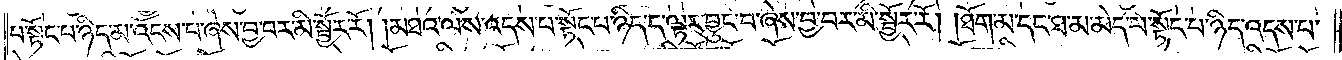པ་སྟོང་པ་ཉིད་མ་འོངས་པ་ཞེས་བྱ་བར་མི་སྦྱོར་རོ། །མཐའ་ལས་འདས་པ་སྟོང་པ་ཉིད་ད་ལྟར་བྱུང་བ་ཞེས་བྱ་བར་མི་སྦྱོར་རོ། །ཐོག་མ་དང་ཐ་མ་མེད་པ་སྟོང་པ་ཉིད་འདས་པ་
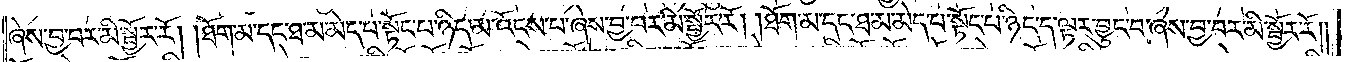ཞེས་བྱ་བར་མི་སྦྱོར་རོ། །ཐོག་མ་དང་ཐ་མ་མེད་པ་སྟོང་པ་ཉིད་མ་འོངས་པ་ཞེས་བྱ་བར་མི་སྦྱོར་རོ། །ཐོག་མ་དང་ཐ་མ་མེད་པ་སྟོང་པ་ཉིད་ད་ལྟར་བྱུང་བ་ཞེས་བྱ་བར་མི་སྦྱོར་རོ༎
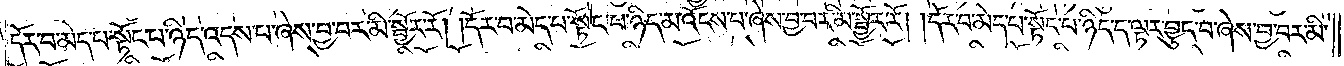དོར་བ་མེད་པ་སྟོང་པ་ཉིད་འདས་པ་ཞེས་བྱ་བར་མི་སྦྱོར་རོ། །དོར་བ་མེད་པ་སྟོང་པ་ཉིད་མ་འོངས་པ་ཞེས་བྱ་བར་མི་སྦྱོར་རོ། །དོར་བ་མེད་པ་སྟོང་པ་ཉིད་ད་ལྟར་བྱུང་བ་ཞེས་བྱ་བར་མི་
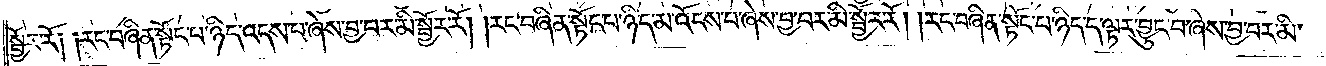སྦྱོར་རོ༑ ༑རང་བཞིན་སྟོང་པ་ཉིད་འདས་པ་ཞེས་བྱ་བར་མི་སྦྱོར་རོ། །རང་བཞིན་སྟོང་པ་ཉིད་མ་འོངས་པ་ཞེས་བྱ་བར་མི་སྦྱོར་རོ། །རང་བཞིན་སྟོང་པ་ཉིད་ད་ལྟར་བྱུང་བ་ཞེས་བྱ་བར་མི་
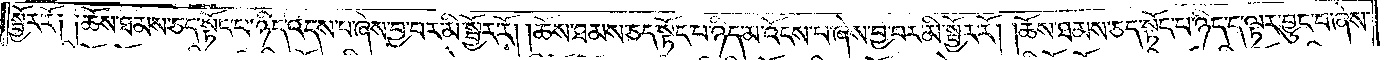སྦྱོར་རོ༑ ༑ཆོས་ཐམས་ཅད་སྟོང་པ་ཉིད་འདས་པ་ཞེས་བྱ་བར་མི་སྦྱོར་རོ། །ཆོས་ཐམས་ཅད་སྟོང་པ་ཉིད་མ་འོངས་པ་ཞེས་བྱ་བར་མི་སྦྱོར་རོ། །ཆོས་ཐམས་ཅད་སྟོང་པ་ཉིད་ད་ལྟར་བྱུང་བ་ཞེས་
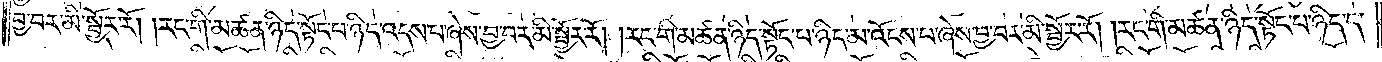བྱ་བར་མི་སྦྱོར་རོ། །རང་གི་མཚན་ཉིད་སྟོང་པ་ཉིད་འདས་པ་ཞེས་བྱ་བར་མི་སྦྱོར་རོ། །རང་གི་མཚན་ཉིད་སྟོང་པ་ཉིད་མ་འོངས་པ་ཞེས་བྱ་བར་མི་སྦྱོར་རོ། །རང་གི་མཚན་ཉིད་སྟོང་པ་ཉིད་ད་
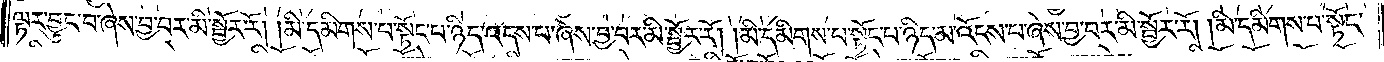ལྟར་བྱུང་བ་ཞེས་བྱ་བར་མི་སྦྱོར་རོ། །མི་དམིགས་པ་སྟོང་པ་ཉིད་འདས་པ་ཞེས་བྱ་བར་མི་སྦྱོར་རོ། །མི་དམིགས་པ་སྟོང་པ་ཉིད་མ་འོངས་པ་ཞེས་བྱ་བར་མི་སྦྱོར་རོ། །མི་དམིགས་པ་སྟོང་
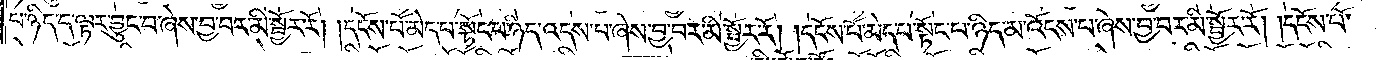པ་ཉིད་ད་ལྟར་བྱུང་བ་ཞེས་བྱ་བར་མི་སྦྱོར་རོ། །དངོས་པོ་མེད་པ་སྟོང་པ་ཉིད་འདས་པ་ཞེས་བྱ་བར་མི་སྦྱོར་རོ། །དངོས་པོ་མེད་པ་སྟོང་པ་ཉིད་མ་འོངས་པ་ཞེས་བྱ་བར་མི་སྦྱོར་རོ། །དངོས་པོ་
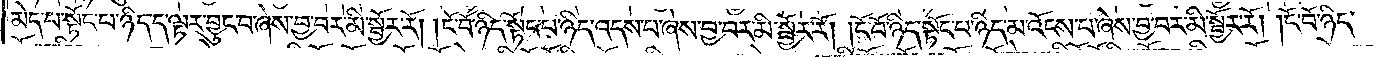མེད་པ་སྟོང་པ་ཉིད་ད་ལྟར་བྱུང་བ་ཞེས་བྱ་བར་མི་སྦྱོར་རོ། །ངོ་བོ་ཉིད་སྟོང་པ་ཉིད་འདས་པ་ཞེས་བྱ་བར་མི་སྦྱོར་རོ། །ངོ་བོ་ཉིད་སྟོང་པ་ཉིད་མ་འོངས་པ་ཞེས་བྱ་བར་མི་སྦྱོར་རོ། །ངོ་བོ་ཉིད་
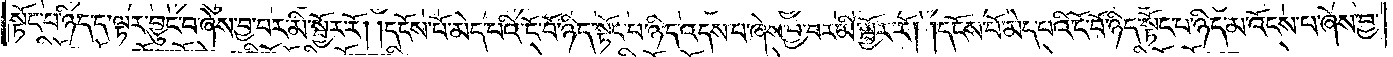སྟོང་པ་ཉིད་ད་ལྟར་བྱུང་བ་ཞེས་བྱ་བར་མི་སྦྱོར་རོ། །དངོས་པོ་མེད་པའི་ངོ་བོ་ཉིད་སྟོང་པ་ཉིད་འདས་པ་ཞེས་བྱ་བར་མི་སྦྱོར་རོ། །དངོས་པོ་མེད་པའི་ངོ་བོ་ཉིད་སྟོང་པ་ཉིད་མ་འོངས་པ་ཞེས་བྱ་
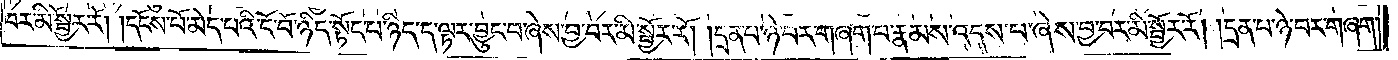པར་མི་སྦྱོར་རོ། །དངོས་པོ་མེད་པའི་ངོ་བོ་ཉིད་སྟོང་པ་ཉིད་ད་ལྟར་བྱུང་བ་ཞེས་བྱ་བར་མི་སྦྱོར་རོ། །དྲན་པ་ཉེ་བར་གཞག་པ་རྣམས་འདས་པ་ཞེས་བྱ་བར་མི་སྦྱོར་རོ། །དྲན་པ་ཉེ་བར་གཞག་
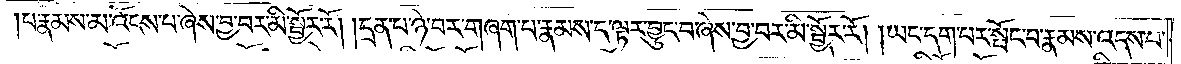པ་རྣམས་མ་འོངས་པ་ཞེས་བྱ་བར་མི་སྦྱོར་རོ། །དྲན་པ་ཉེ་བར་གཞག་པ་རྣམས་ད་ལྟར་བྱུང་བ་ཞེས་བྱ་བར་མི་སྦྱོར་རོ། །ཡང་དག་པར་སྤོང་བ་རྣམས་འདས་པ་
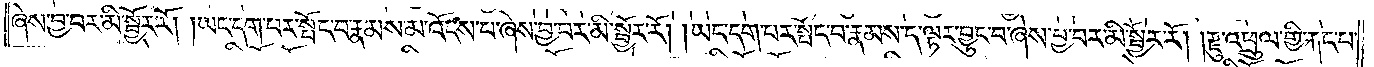ཞེས་བྱ་བར་མི་སྦྱོར་རོ། །ཡང་དག་པར་སྤོང་བ་རྣམས་མ་འོངས་པ་ཞེས་བྱ་བར་མི་སྦྱོར་རོ། །ཡང་དག་པར་སྤོང་བ་རྣམས་ད་ལྟར་བྱུང་བ་ཞེས་བྱ་བར་མི་སྦྱོར་རོ། །རྫུ་འཕྲུལ་གྱི་རྐང་པ་
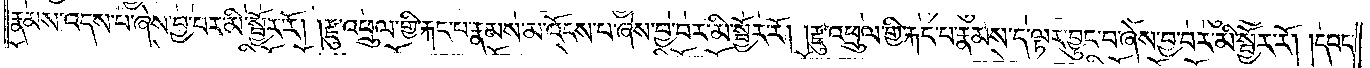རྣམས་འདས་པ་ཞེས་བྱ་བར་མི་སྦྱོར་རོ། །རྫུ་འཕྲུལ་གྱི་རྐང་པ་རྣམས་མ་འོངས་པ་ཞེས་བྱ་བར་མི་སྦྱོར་རོ། །རྫུ་འཕྲུལ་གྱི་རྐང་པ་རྣམས་ད་ལྟར་བྱུང་བ་ཞེས་བྱ་བར་མི་སྦྱོར་རོ། །དབང་
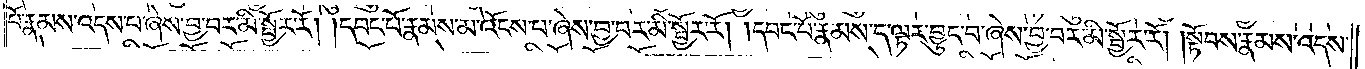པོ་རྣམས་འདས་པ་ཞེས་བྱ་བར་མི་སྦྱོར་རོ། །དབང་པོ་རྣམས་མ་འོངས་པ་ཞེས་བྱ་བར་མི་སྦྱོར་རོ། །དབང་པོ་རྣམས་ད་ལྟར་བྱུང་བ་ཞེས་བྱ་བར་མི་སྦྱོར་རོ། །སྟོབས་རྣམས་འདས་
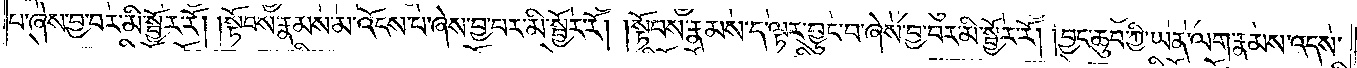པ་ཞེས་བྱ་བར་མི་སྦྱོར་རོ། །སྟོབས་རྣམས་མ་འོངས་པ་ཞེས་བྱ་བར་མི་སྦྱོར་རོ། །སྟོབས་རྣམས་ད་ལྟར་བྱུང་བ་ཞེས་བྱ་བར་མི་སྦྱོར་རོ། །བྱང་ཆུབ་ཀྱི་ཡན་ལག་རྣམས་འདས་
